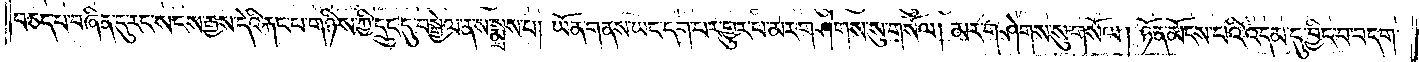བཅད་པ་བཞིན་དུ་རང་སངས་རྒྱས་དེའི་རྐང་པ་གཉིས་ཀྱི་དྲུང་དུ་བསྒྱེལ་ནས་སྨྲས་པ། ཡོན་གནས་ཡང་དག་པར་གྱུར་པ་མར་གཤེགས་སུ་གསོལ། མར་གཤེགས་སུ་གསོལ། ཉོན་མོངས་པའི་འདམ་དུ་བྱིང་བ་བདག་
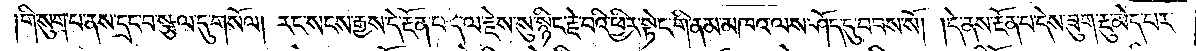གི་སུག་པ་ནས་དྲང་བ་སྩལ་དུ་གསོལ། རང་སངས་རྒྱས་དེ་རྔོན་པ་དེ་ལ་རྗེས་སུ་སྙིང་རྗེ་བའི་ཕྱིར་སྟེང་གི་ནམ་མཁའ་ལས་ཤོད་དུ་བབས་སོ། །དེ་ནས་རྔོན་པ་དེས་ཟུག་རྔུ་མེད་པར་
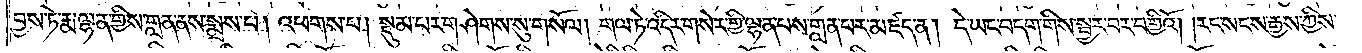བྱས་ཏེ་རྨ་ལྷན་གྱིས་གླན་ནས་སྨྲས་པ། འཕགས་པ། སྡུམ་པར་གཤེགས་སུ་གསོལ། གལ་ཏེ་འདིར་གསེར་གྱི་ལྷན་པས་གླན་པར་མཛད་ནས། དེ་ཡང་བདག་གིས་སྦྱར་བར་བགྱིའོ། །རང་སངས་རྒྱས་ཀྱིས་
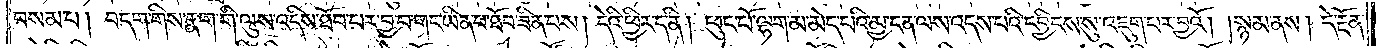བསམ་པ། བདག་གིས་རྣག་གི་ལུས་འདིས་ཐོབ་པར་བྱ་བ་གང་ཡིན་པ་ཐོབ་ཟིན་པས། དེའི་ཕྱིར་ད་ནི། ཕུང་པོ་ལྷག་མ་མེད་པའི་མྱ་ངན་ལས་འདས་པའི་དབྱིངས་སུ་འཇུག་པར་བྱའོ། །སྙམ་ནས། དེ་རྔོན་
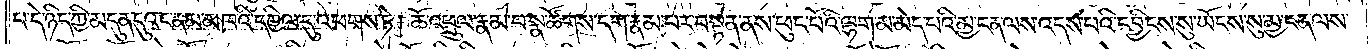པ་དེ་ཉིད་ཀྱི་མདུན་དུའང་ནམ་མཁའི་དཀྱིལ་དུ་འཕགས་ཏེ། ཆོ་འཕྲུལ་རྣམ་པ་སྣ་ཚོགས་དག་རྣམ་པར་བསྟན་ནས་ཕུང་པོའི་ལྷག་མ་མེད་པའི་མྱ་ངན་ལས་འདས་པའི་དབྱིངས་སུ་ཡོངས་སུ་མྱ་ངན་ལས་
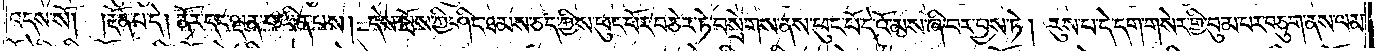འདས་སོ། །རྔོན་པ་དེ། ནོར་དང་ལྡན་པ་ཡིན་པས། དེས་སྤོས་ཀྱི་ཤིང་ཐམས་ཅད་ཀྱིས་ཕུང་པོར་བཅེར་ཏེ་བསྲེགས་ནས་ཕུང་པོ་དེ་འོ་མས་ཞི་བར་བྱས་ཏེ། རུས་པ་དེ་དག་གསེར་གྱི་བུམ་པར་བཅུག་ནས་ལམ་
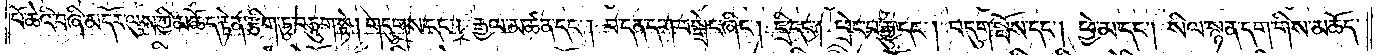པོ་ཆེའི་བཞི་མདོར་ལུས་ཀྱི་མཆོད་རྟེན་རྩིག་ཏུ་བཅུག་སྟེ། གདུགས་དང༌། རྒྱལ་མཚན་དང༌། བ་དན་དག་བསྒྲེང་ཞིང༌། དྲི་དང༌། ཕྲེང་བ་རྒྱུ་དང༌། བདུག་སྤོས་དང༌། ཕྱེ་མ་དང༌། སིལ་སྙན་དག་གིས་མཆོད་
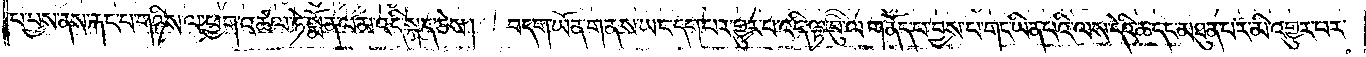པ་བྱས་ནས་རྐང་པ་གཉིས་ལ་ཕྱག་འཚལ་ཏེ་སྨོན་ལམ་འདི་སྐད་ཅེས། བདག་ཡོན་གནས་ཡང་དག་པར་གྱུར་པ་འདི་ལྟ་བུ་ལ་གནོད་པ་བྱས་པ་གང་ཡིན་པའི་ལས་དེའི་ཆ་དང་མཐུན་པར་མི་འགྱུར་བར་
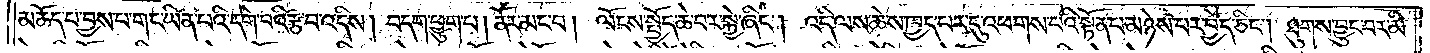མཆོད་པ་བྱས་པ་གང་ཡིན་པའི་དགེ་བའི་རྩ་བ་འདིས། བདག་ཕྱུག་པ། ནོར་མང་བ། ལོངས་སྤྱོད་ཆེ་བར་སྐྱེ་ཞིང༌། འདི་ལས་ཆེས་ཁྱད་པར་དུ་འཕགས་པའི་སྟོན་པ་མཉེས་པར་བྱེད་ཅིང༌། ཐུགས་བྱུང་བར་མི་
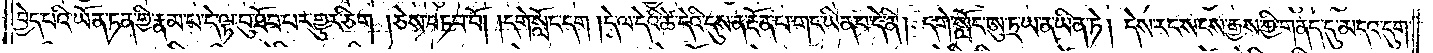བྱེད་པའི་ཡོན་ཏན་གྱི་རྣམ་པ་དེ་ལྟ་བུ་ཐོབ་པར་གྱུར་ཅིག །ཅེས་བཏབ་བོ། །དགེ་སློང་དག །དེ་ལ་དེའི་ཚེ་དེའི་དུས་ན་རྔོན་པ་གང་ཡིན་པ་དེ་ནི། དགེ་སློང་ཨུ་ཏྲ་ཡ་ན་ཡིན་ཏེ། དེས་རང་སངས་རྒྱས་ཀྱི་གནད་དུ་མདའ་དུག་
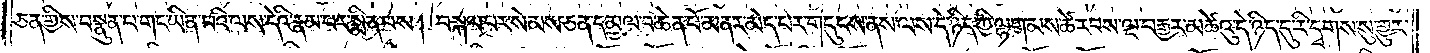ཅན་གྱིས་བསྣུན་པ་གང་ཡིན་པའི་ལས་དེའི་རྣམ་པར་སྨིན་པས། བསྐལ་པར་སེམས་ཅན་དམྱལ་བ་ཆེན་པོ་མནར་མེད་པར་གདུངས་ནས་ལས་དེ་ཉིད་ཀྱི་ལྷག་མས་ཚེ་རབས་ལྔ་བརྒྱར་མཚེའུ་དེ་ཉིད་དུ་རི་དྭགས་སུ་གྱུར་
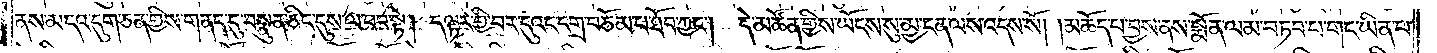ནས་མདའ་དུག་ཅན་གྱིས་གནད་དུ་བསྣུན་ཅིང་དུས་ལ་བབ་སྟེ། ད་ལྟར་གྱི་བར་དུའང་དགྲ་བཅོམ་པ་ཐོབ་ཀྱང༌། དེ་མཚོན་གྱིས་ཡོངས་སུ་མྱ་ངན་ལས་འདས་སོ། །མཆོད་པ་བྱས་ནས་སྨོན་ལམ་བཏབ་པ་གང་ཡིན་པ་
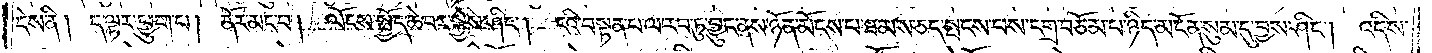དེས་ནི། ད་ལྟར་ཕྱུག་པ། ནོར་མང་བ། ལོངས་སྤྱོད་ཆེ་བར་སྐྱེས་ཤིང༌། ངའི་བསྟན་པ་ལ་རབ་ཏུ་བྱུང་ནས་ཉོན་མོངས་པ་ཐམས་ཅད་སྤངས་པས་དགྲ་བཅོམ་པ་ཉིད་མངོན་སུམ་དུ་བྱས་ཤིང༌། འདིས་
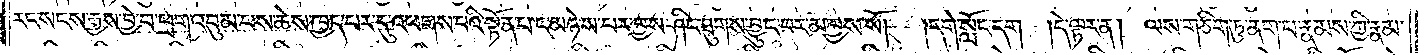རང་སངས་རྒྱས་བྱེ་བ་ཕྲག་འབུམ་པས་ཆེས་ཁྱད་པར་དུ་འཕགས་པའི་སྟོན་པ་ང་མཉེས་པར་བྱས་ཤིང་ཐུགས་བྱུང་བར་མ་བྱས་སོ། །དགེ་སློང་དག །དེ་ལྟར་ན། ལས་གཅིག་ཏུ་ནག་པ་རྣམས་ཀྱི་རྣམ་
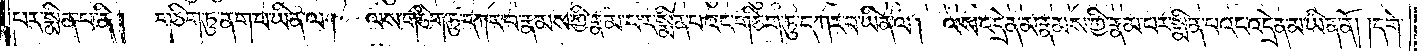པར་སྨིན་པ་ནི། གཅིག་ཏུ་ནག་པ་ཡིན་ལ། ལས་གཅིག་ཏུ་དཀར་བ་རྣམས་ཀྱི་རྣམ་པར་སྨིན་པའང་གཅིག་ཏུ་དཀར་བ་ཡིན་ལ། ལས་འདྲེན་མ་རྣམས་ཀྱི་རྣམ་པར་སྨིན་པའང་འདྲེན་མ་ཡིན་ནོ། །དགེ་
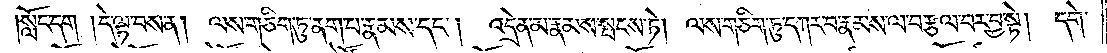སློང་དག །དེ་ལྟ་བས་ན། ལས་གཅིག་ཏུ་ནག་པ་རྣམས་དང༌། འདྲེན་མ་རྣམས་སྤངས་ཏེ། ལས་གཅིག་ཏུ་དཀར་བ་རྣམས་ལ་བརྩལ་བར་བྱ་སྟེ། དགེ་
